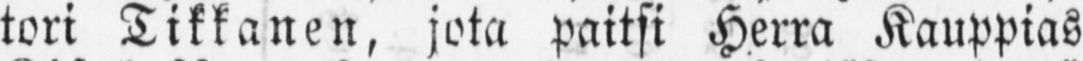tori Tikkanen, jota paitsi Herra Kauppias
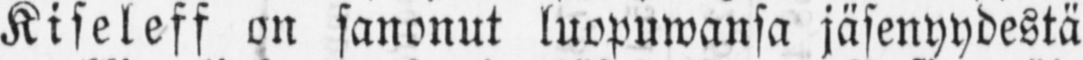Kiseleff on sanonut luopuwansa jäsenyydestä
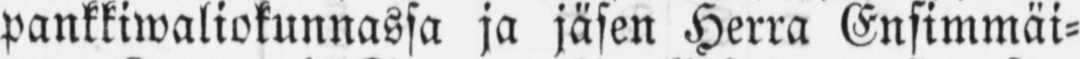pankkiwaliokunnassa ja jäsen Herra Ensimmäi-
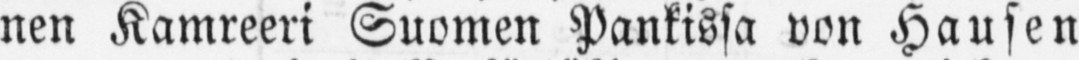nen Kamreeri Suomen Pankissa von Hausen
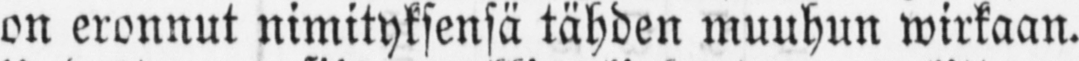on eronnut nimityksensä tähden muuhun wirkaan.
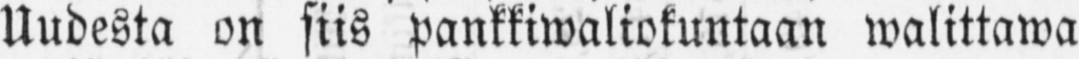Uudesta on siis pankkiwaliokuntaan walittawa
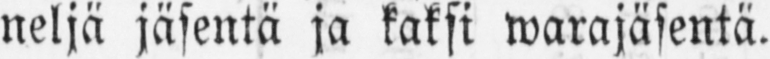neljä jäsentä ja kaksi warajäsentä.
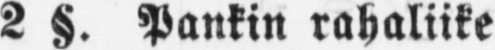2 §. Pankin rahaliike.
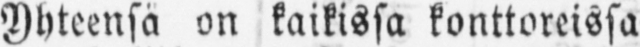Yhteensä on kaikissa konttoreissa
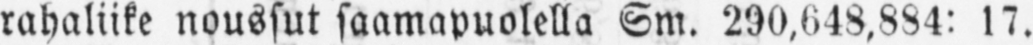rahaliike noussut saamapuolella Sm. 290,648,884: 17.
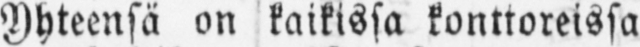Yhteensä on kaikissa konttoreissa
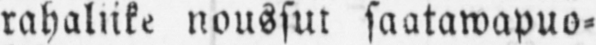rahaliike noussut saatawapuo-
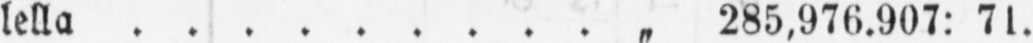lella „ 285,976.907: 71.
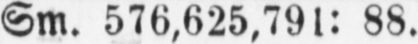Sm. 576,625,791: 88.
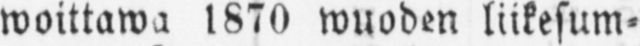woittawa 1870 wuoden liikesum-
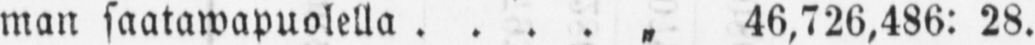man saatawapuolella „ 46,726,486: 28.
